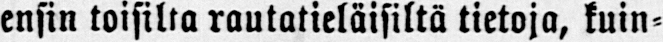ensin toisilta rautatieläisiltä tietoja, kuin-
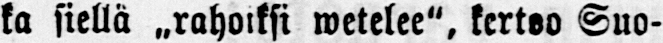ka siellä ˶rahoiksi wetelee", kertso Suo-
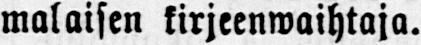malaisen kirjeenwaihtaja.
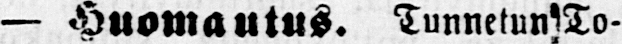— Huomautus. Tunnetun To-
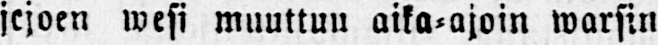jejoen wesi muuttuu aika-ajoin warsin
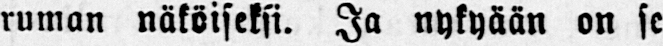ruman näköiseksi. Ja nykyään on se
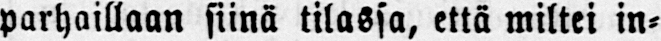parhaillaan siinä tilassa, että miltei in-
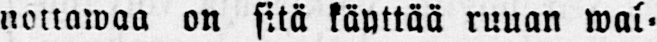nottawaa on sitä käyttää ruuan wal-
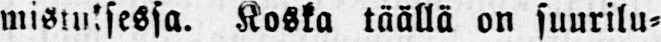mistusessa. Koska täällä on suurilu-
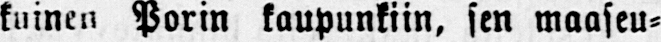kuinen Porin kaupunkiin, sen maaseu-
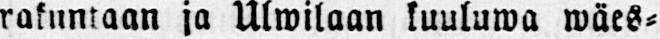rakuntaan ja Ulwilaan kuuluwa wäes-
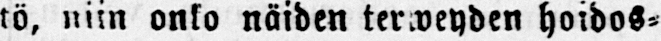tö, niin onko näiden terweyden hoidos-
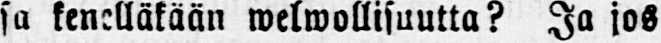sa kenelläkään welwollisuutta? Ja jos
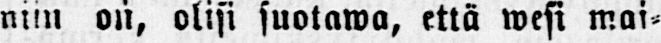niin on, olisi suotawa, että wesi mai-
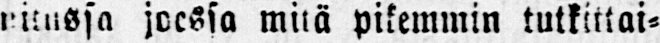nitussa joessa mitä pikemmin tutkittai-
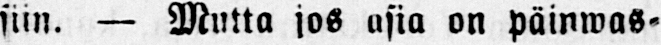siin. — Mutta jos asia on päinwas-
